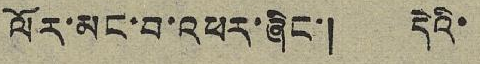ལོར་མང་བ་འཕར་ཞིང་། དེའི་
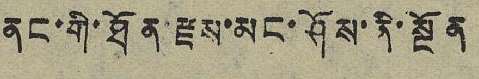ནང་གི་ཐོན་རྫས་མང་ཤོས་ནི་སྔོན
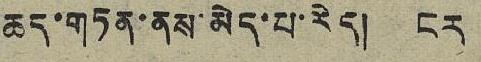ཆད་གཏན་ནས་མེད་པ་རེད། ངར
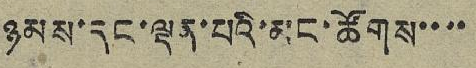ཉམས་དང་ལྡན་པའི་མང་ཚོགས་་་་
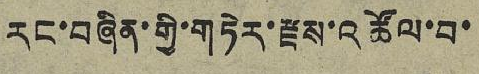རང་བཞིན་གྱི་གཏེར་རྫས་འཚོལ་བ་
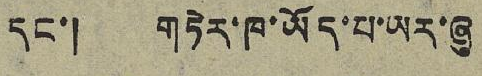དང་། གཏེར་ཁ་ཡོད་པ་ཡར་ཞུ
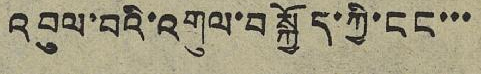འབུལ་བའི་འགུལ་བསྐྱོད་ཀྱི་ངང་་་
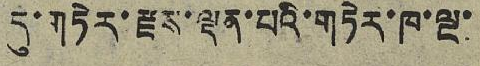དུ་གཏེར་རྫས་ལྡན་པའི་གཏེར་ཁ་ལྔ་
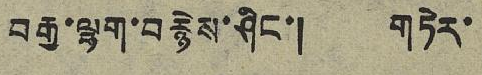བརྒྱ་ལྷག་བརྙེས་ཤིང་། གཏེར་
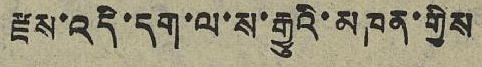རྫས་འདི་དག་ལ་ས་རྒྱུའི་མཁན་གྱིས
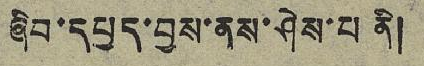ཞིབ་དཔྱད་བྱས་ནས་ཤེས་པ ནི།
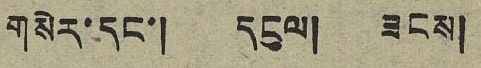གསེར་དང་། དངུལ། ཟངས།
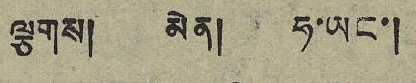ལྕགས། མེན། ཧ་ཡང་།
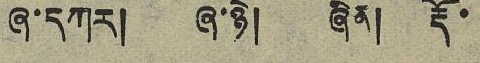ཞ་དཀར། ཞ་ཉེ། ཞིན། རྡོ་
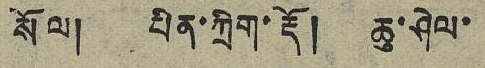སོལ། པིན་ཀྲིག་རྡོ། ཆུ་ཤེལ་
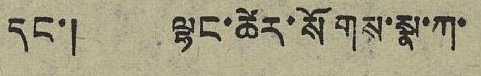དང་། ལྷང་ཚེར་སོགས་སྣ་ཀ་
